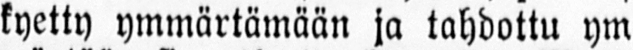kyetty ymmärtämään ja tahdottu ym
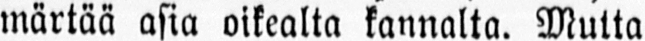märtää asia oikealta kannalta. Mutta
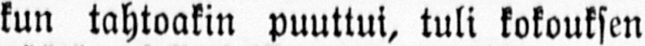kun tahtoakin puuttui, tuli kokouksen
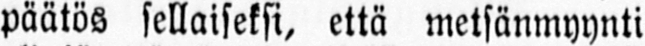päätös sellaiseksi, että metsänmyynti
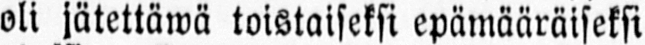oli jätettäwä toistaiseksi epämääräiseksi
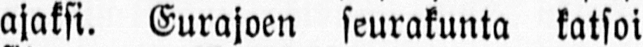ajaksi. Eurajoen seurakunta katsoi
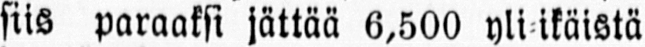siis paraaksi jättää 6,500 yli ikäistä
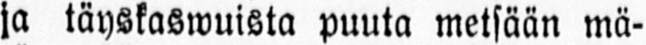ja täyskaswuista puuta metsään mä-
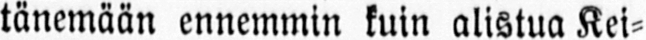tänemään ennemmin kuin alistua Kei-
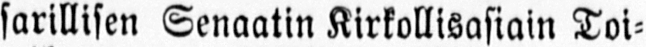sarillisen Senaatin Kirkollisasiain Toi-
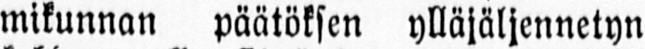mikunnan päätöksen ylläjäljennetyn
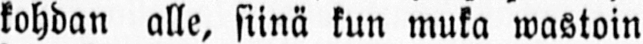kohdan alle, siinä kun muka wastoin
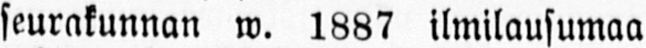seurakunnan w. 1887 ilmilausumaa
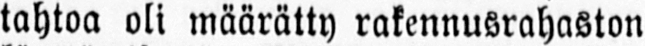tahtoa oli määrätty rakennusrahaston
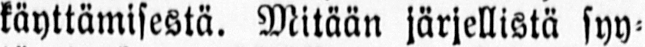käyttämisestä. Mitään järjellistä syy-
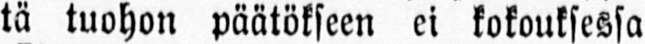tä tuohon päätökseen ei kokouksessa
